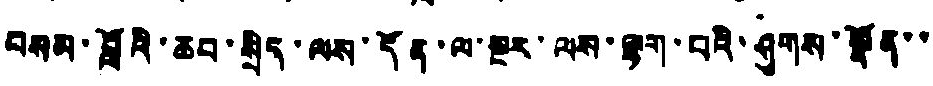བསམ་བློའི་ཆབ་སྲིད་ལས་དོན་ལ་སྔར་ལས་ལྷག་པའི་ཤུགས་སྣོན་་
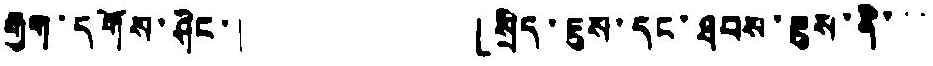རྒྱག་དགོས་ཤིང་། 「སྲིད་ཇུས་དང་ཐབས་ཇུས་ནི་་་
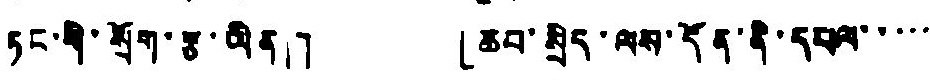ཏང་གི་སོག་རྩ་ཡིན།」 「ཆབ་སྲིད་ལས་དོན་ནི་དཔལ་་་་་
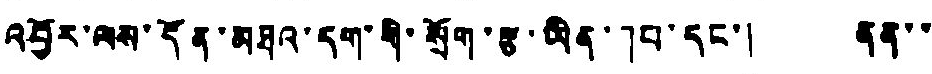འབྱོར་ལས་དོན་མཐའ་དག་གི་སྲོག་རྩ་ཡིན་」བ་དང་། ནན་་
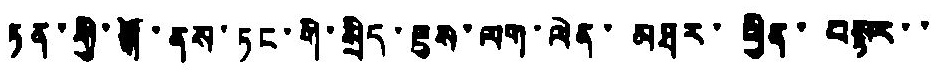ཏན་གྱི་སྒོ་ནས་ཏང་གི་སྲིད་ཇུས་ལག་ལེན་མཐར་ཕྱིན་བསྟར་་
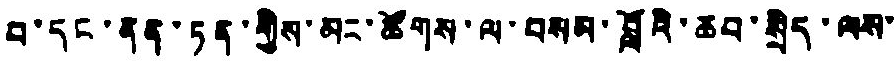བ་དང་ནན་ཏན་གྱིས་མང་ཚོགས་ལ་བསམ་བློའི་ཆབ་སྲིད་ལས་
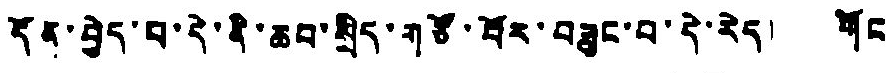དོན་བྱེད་པ་དེ་ནི་ཆབ་སྲིད་གཙོ་བོར་བཟུང་བ་དེ་རེད། གོང
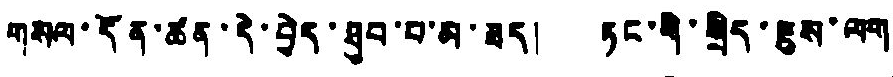གསལ་དོན་ཚན་དེ་བྱེད་ཐུབ་པ་མ་ཟད། ཏང་གི་སྲིད་ཇུས་ལག་
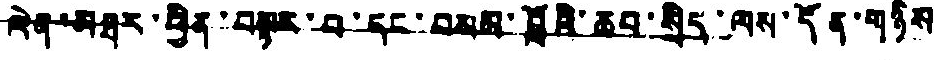ལེན་མཐར་ཕྱིན་བསྟར་བ་དང་བསམ་བློའི་ཆབ་སྲིད་ལས་དོན་གཉིས
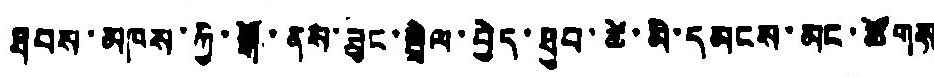ཐབས་མཁས་ཀྱི་སྒོ་ནས་ཟུང་སྦྲེལ་བྱེད་ཐུབ་ཚེ་མི་དམངས་མང་ཚོགས
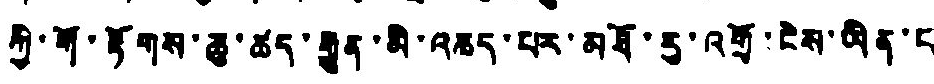ཀྱི་གོ་རྟོགས་ཆུ་ཚད་རྒྱུན་མི་འཆད་པར་མཐོ་རུ་འགྲོ་ངེས་ཡིན་པ
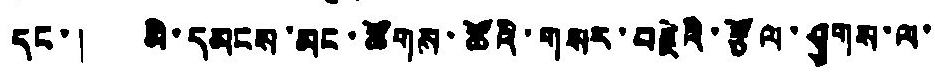དང་། མི་དམངས་མང་ཚོགས་ཚོའི་གསར་བརྗེའི་རྩོལ་ཤུགས་ལ་
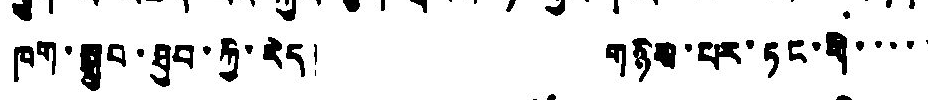ཁག་སྒྲུབ་ཐུབ་ཀྱི་རེད། གཉིས་པར་ཏང་གི་་་་་
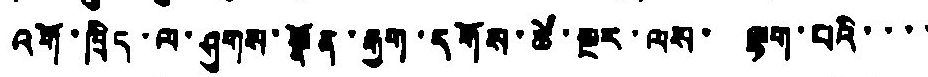འགོ་ཁྲིད་ལ་ཤུགས་སྣོན་རྒྱག་དགོས་ཚེ་སྔར་ལས་ ལྷག་པའི་་་་
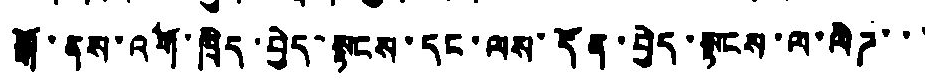སྒོ་ནས་འགོ་ཁྲིད་བྱེད་སྟངས་དང་ལས་དོན་བྱེད་སྟངས་ལ་ལེཌ་་་
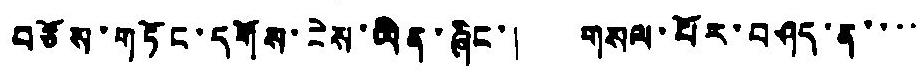བཅོས་གཏོང་དགོས་ངེས་ཡིན་ཞིང་། གསལ་པོར་བཤད་ན་་་་་
